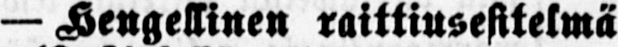— Hengellinen raittiusesitelmä
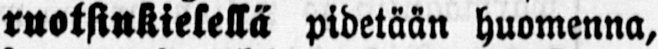ruotsinkielellä pidetään huomenna,
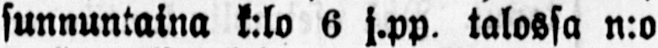sunnuntaina k:lo 6 j.pp. talossa n:o
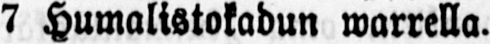7 Humalistokadun warrella.
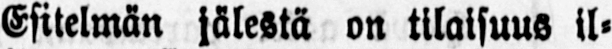Esitelmän jälestä on tilaisuus il-
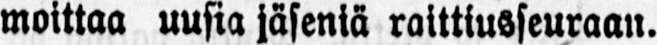moittaa uusia jäseniä raittiusseuraan.
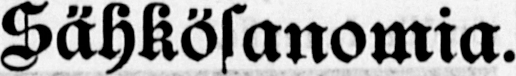Sähkösanomia.
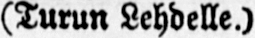(Turun Lehdelle.)
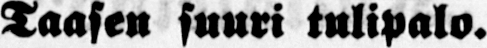Taasen suuri tulipalo.
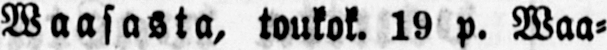Wassasta, toukok. 19 p. Waa-
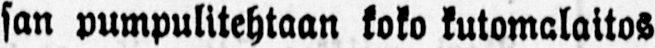san pumpulitehtaan koko kutomalaitos
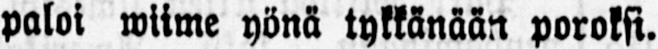paloi wiime yönä tykkänään poroksi.
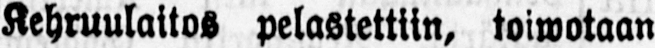Kehruulaitos pelastettiin, toiwotaan
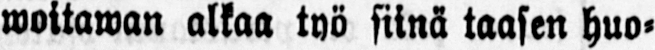woitawan alkaa työ siinä taasen huo-
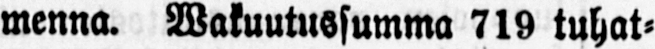menna. Wakuutussumma 719 tuhat-
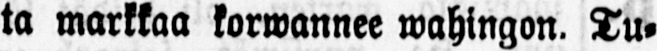ta markkaa korwannee wahingon. Tu-
